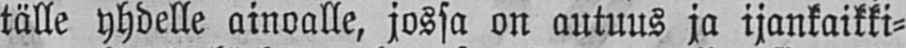tälle yhdelle ainoalle, jossa on autuus ja ijankaikki-
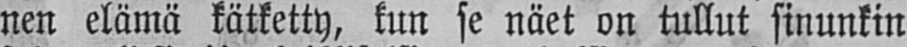nen elämä kätketty, kun se näet on tullut sinunkin
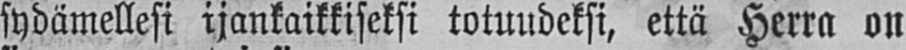sydämellesi ijankaikkiseksi totuudeksi, että Herra on
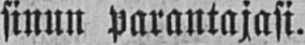sinun parantajasi.
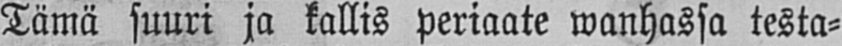Tämä suuri ja kallis periaate wanhassa testa-
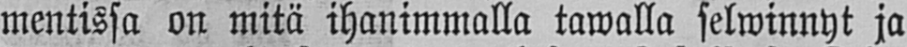mentissa on mitä ihanimmalla tawalla selwinnyt ja
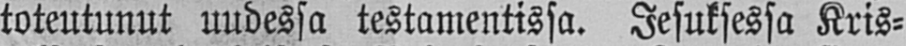toteutunut uudessa testamentissa. Jesuksessa Kris-
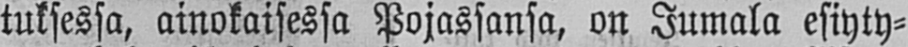tuksessa, ainokaisessa Pojassansa, on Jumala esiyty-
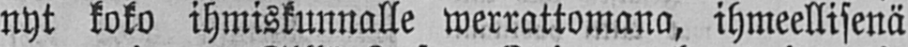nyt koko ihmiskunnalle werrattomana, ihmeellisenä
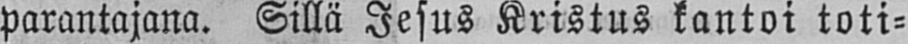parantajana. Sillä Jesus Kristus kantoi toti-
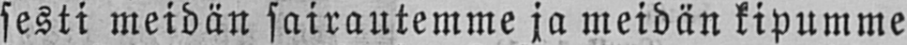sesti meidän sairautemme ja meidän kipumme
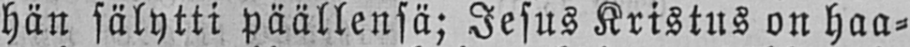hän sälytti päällensä; Jesus Kristus on haa-
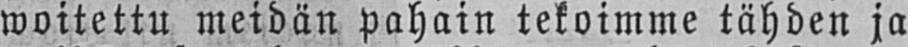woitettu meidän pahain tekoimme tähden ja
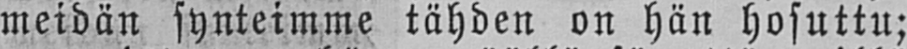meidän synteimme tähden on hän hosuttu;
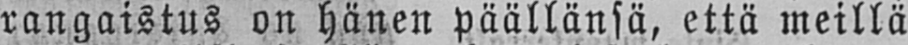rangaistus on hänen päällänsä, että meillä
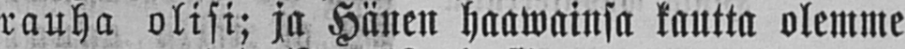rauha olisi; ja Hänen haawainsa kautta olemme
